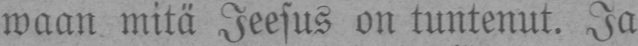waan mitä Jeesus on tuntenut. Ja
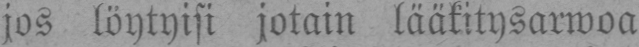jos löytyisi jotain lääkitysarwoa
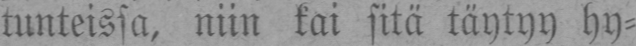tunteissa, niin kai sitä täytyy hy-
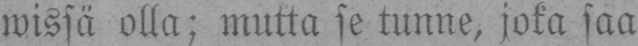wissä olla; mutta se tunne, joka saa
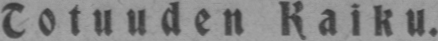Totuuden Kaiku.
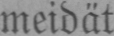meidät
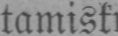tamisti
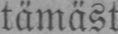tämäst
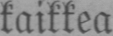kaikkea
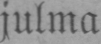julma
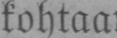tMllll!
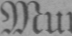Mu,
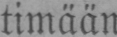timään
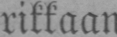ritkaau
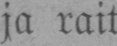ja rait
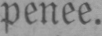penee.
